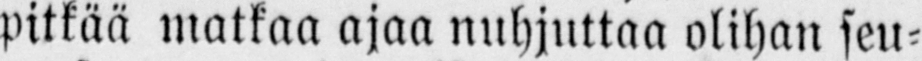pitkää matkaa ajaa nuhjuttaa olihan seu-
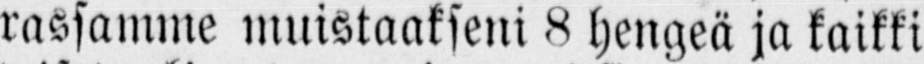rassamme muistaakseni 8 hengeä ja kaikki
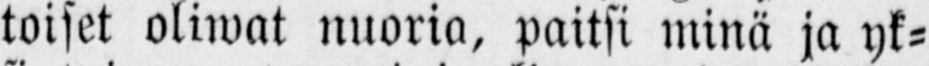toiset oliwat nuoria, paitsi minä ja yk-
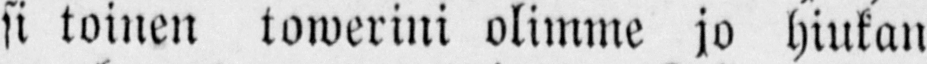si toinen towerini olimme jo hiukan
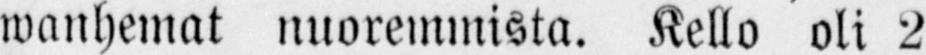wanhemat nuoremmista. Kello oli 2
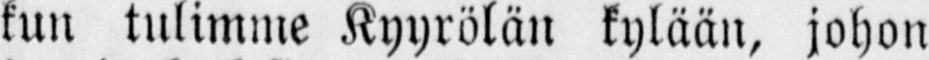kun tulimme Kyyrölän kylään, johon
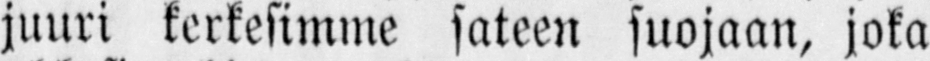juuri kerkesimme sateen suojaan, joka
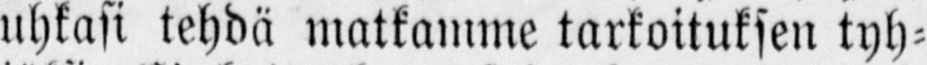uhkasi tehdä matkamme tarkoituksen tyh-
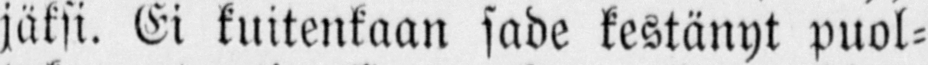jäksi. Ei kuitenkaan sade kestänyt puol-
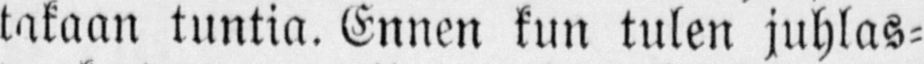takaan tuntia. Ennen kilit tulen juhlas-
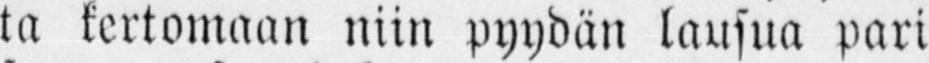ta kertomaan niin pyydän lausua pari
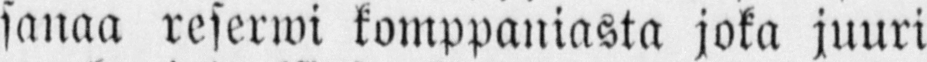sanaa reserwi komppaniasta joka juuri
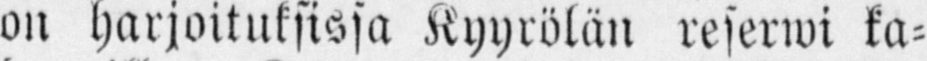on harjoituksissa Kyyrölän reserwi ka-
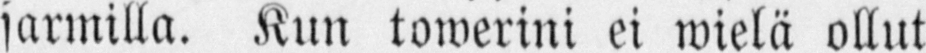sarmilla. Kun towerini ei wielä ollut
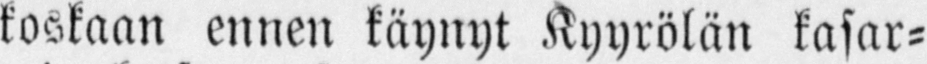koskaan ennen käynyt Kyyrölän kasar-
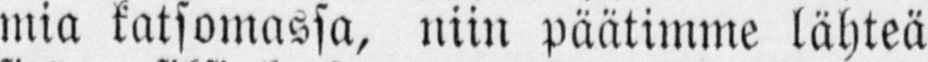mia katsomassa, niin päätimme lähteä
